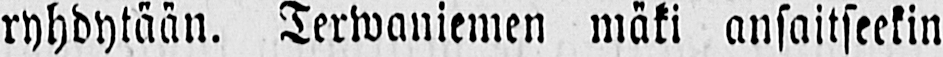ryhdytään. Terwaniemen mäki ansaitseekin
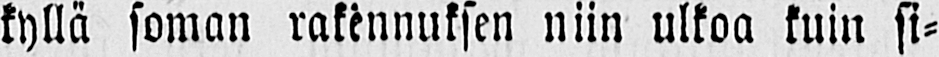kyllä soman rakennuksen niin ulkoa kuin si-
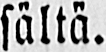sältä.
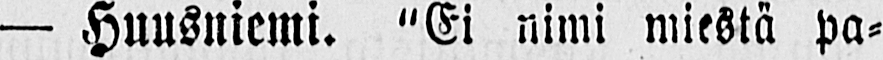— Huusniemi. "Ei nimi miestä pa-
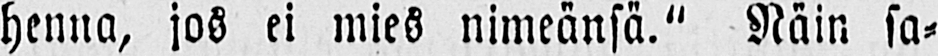henna, jos ei mies nimeänsä." Näin sa-
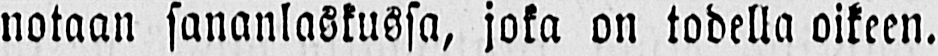notaan sananlaskussa, joka on todella oikeen.
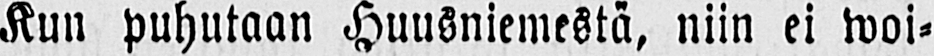Kun puhutaan Huusniemestä, niin ei woi-
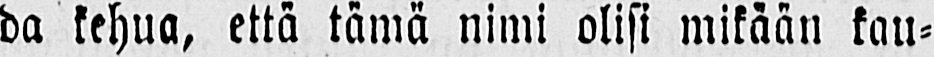da kehua, että tämä nimi olisi mikään kau-
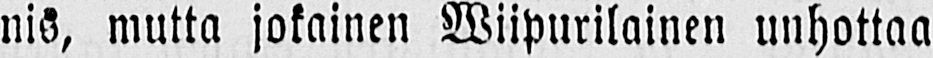nis, mutta jokainen Wiipurilainen unhottaa
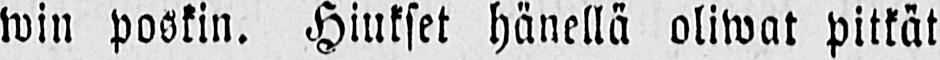win poskin. Hiukset hänellä oliwat pitkät
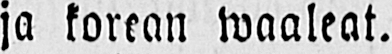ja korean waaleat.
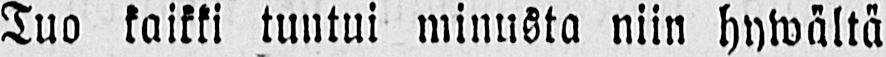Tuo kaikki tuntui minusta niin hywältä
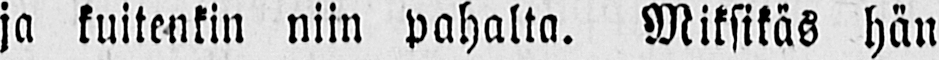ja kuitenkin niin pahalta. Miksikäs hän
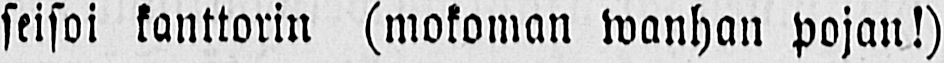seisoi kanttorin (mokoman wanhan pojan!)
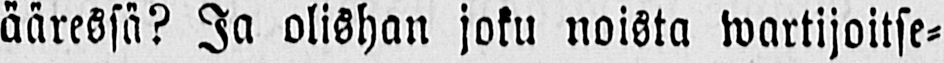ääressä? Ja olishan joku noista wartijoitse-
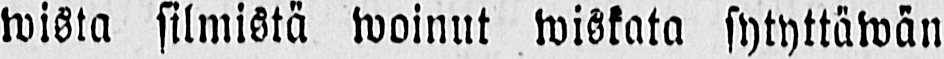wista silmistä woinut wiskata sytyttäwän
